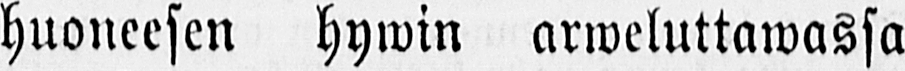huoneesen hywin arweluttawassa
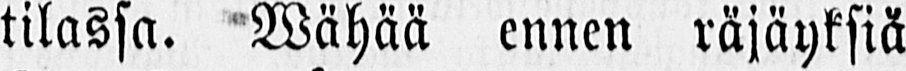tilassa. Wähää ennen räjäyksiä
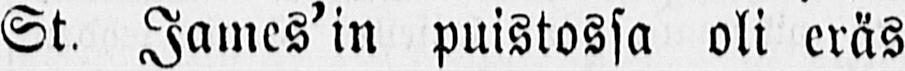St. Jamese'in puistossa oli eräs
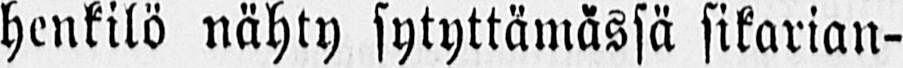henkilö nähty sytyttämässä sikarian-
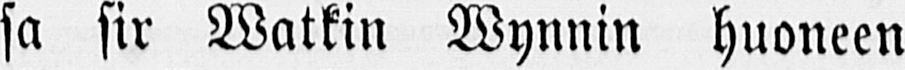sa sir Watkin Wynnin huoneen
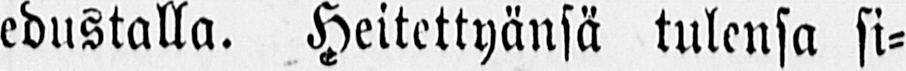edustalla. Heitettyänsä tulensa si-
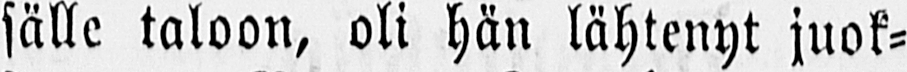sälle taloon, oli hän lähtenyt juok-
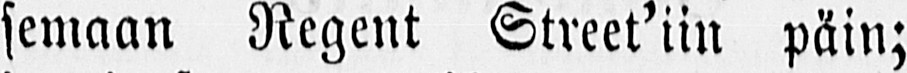semaan Regent Street'iin päin;
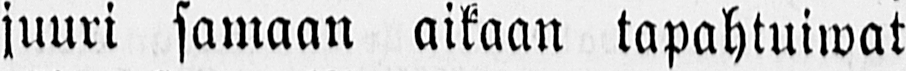juuri samaan aikaan tapahtuiwat
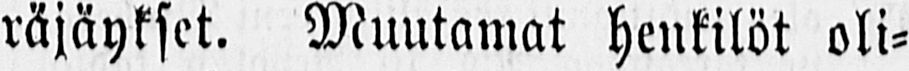räjäykset. Muutamat henkilöt oli-
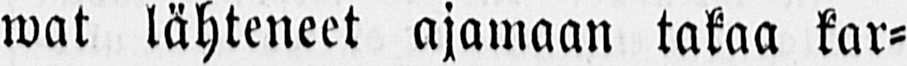wat lähteneet ajamaan takaa kar-
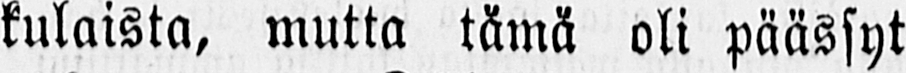kulaista, mutta tämä oli päässyt
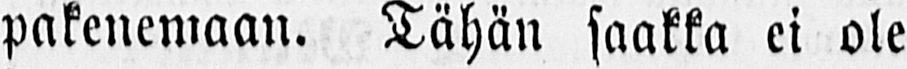pakenemaan. Tähän saakka ei ole
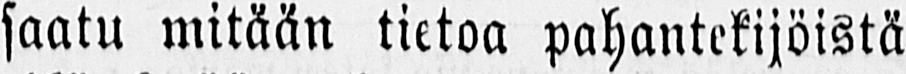saatu mitään tietoa pahantekijöistä
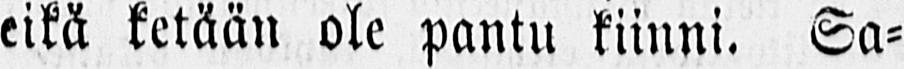eikä ketään ole pantu kiinni. Sa-
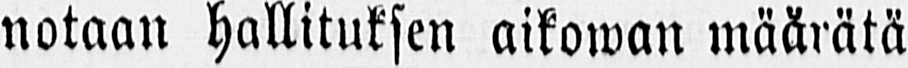notaan hallituksen aikowan määrätä
